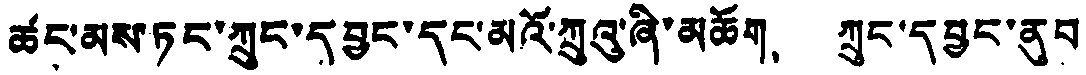ཚང་མས་ཏང་ཀྲུང་དབྱང་དང་མའོ་ཀྲུའུ་ཞི་མཆོག、 ཀྲུང་དབྱང་ནུབ
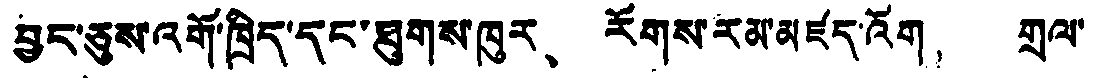བྱང་ཅུས་འགོ་ཁྲིད་དང་ཐུགས་ཁུར、 རོགས་རམ་མཛད་འོག、 གྲལ་
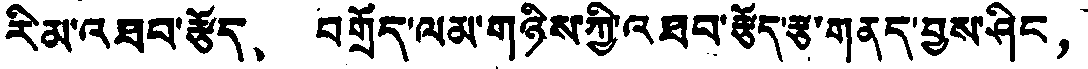རི་མ་འཐབ་རྩོད、 བགྲོད་ལམ་གཉིས་ཀྱི་འཐབ་རྩོད་རྩ་གནད་བྱས་ཤིང，
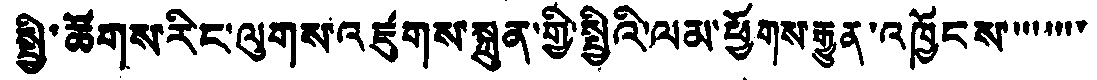སྤྱི་ཚོགས་རིང་ལུགས་འཛུགས་སྐྲུན་གྱི་སྤྱིའི་ལམ་ཕྱོགས་རྒྱུན་འཁྱོངས་་་་་་་་
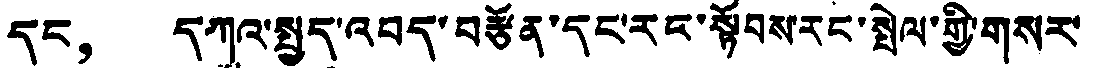དང， དཀའ་སྤྱད་འབད་བརྩོན་དང་རང་སྟོབས་རང་སྤེལ་གྱི་གསར་
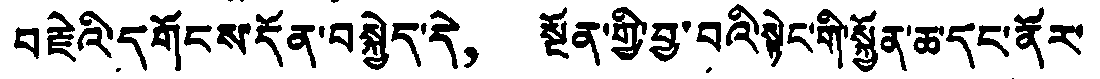བརྗེའི་དགོངས་དོན་བསྐྱེད་དེ， སྔོན་གྱི་བྱ་བའི་སྟེང་གི་སྐྱོན་ཆ་དང་ནོར་
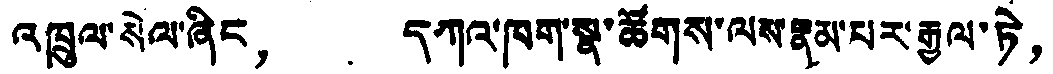འཁྲུལ་སེལ་ཞིང， དཀའ་ཁག་སྣ་ཚོགས་ལས་རྣམ་པར་རྒྱལ་ཏེ，
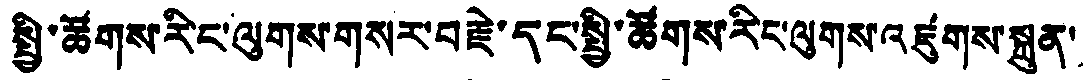སྤྱི་ཚོགས་རིང་ལུགས་གསར་བརྗེ་དང་སྤྱི་ཚོགས་རིང་ལུགས་འཛུགས་སྐྲུན་
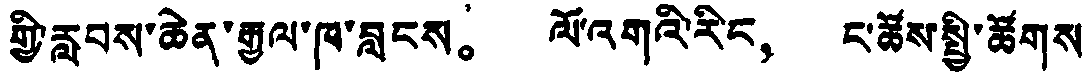གྱི་རླབས་ཆེན་རྒྱལ་ཁ་བླངས。 ལོ་འགའི་རིང， ང་ཚོས་སྤྱི་ཚོགས
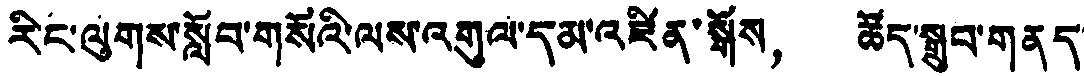རིང་ལུགས་སློབ་གསོའི་ལས་འགུལ་དམ་འཛིན་སྒོས， ཆོད་སྒྲུབ་གནད་
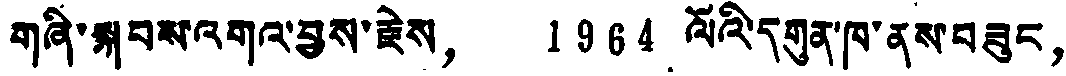གཞི་སྐབས་འགའ་བྱས་རྗེས， 1964 ལོའི་དགུན་ཁ་ནས་བཟུང，
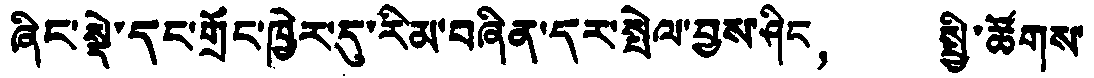ཞིང་སྡེ་དང་གྲོང་ཁྱེར་དུ་རིམ་བཞིན་དར་སྤེལ་བྱས་ཤིང， སྤྱི་ཚོགས་
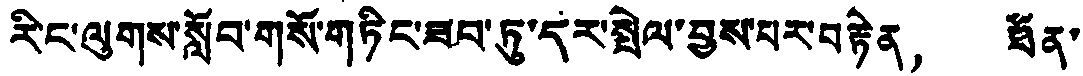རིང་ལུགས་སློབ་གསོ་གཏིང་ཟབ་ཏུ་དར་སྤེལ་བྱས་པར་བརྟེན， ཐོན་
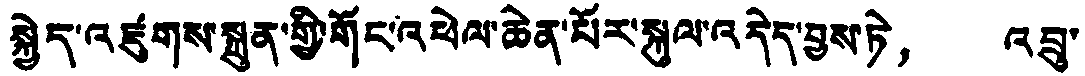སྐྱེད་འཛུགས་སྐྲུན་གྱི་གོང་འཕེལ་ཆེན་པོར་སྐུལ་འདེད་བྱས་ཏེ， འབྲུ་
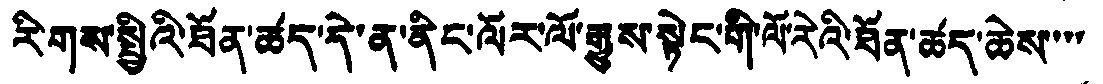རིགས་སྤྱིའི་ཐོན་ཚད་དེ་ན་ནིང་ལོར་ལོ་རྒྱུས་སྟེང་གི་ལོ་རེའི་ཐོན་ཚད་ཆེས་་་་
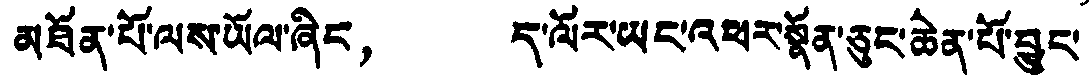མཐོན་པོ་ལས་ཡོལ་ཞིང， ད་ལོར་ཡང་འཕར་སྣོན་ཅུང་ཆེན་པོ་བྱུང་
